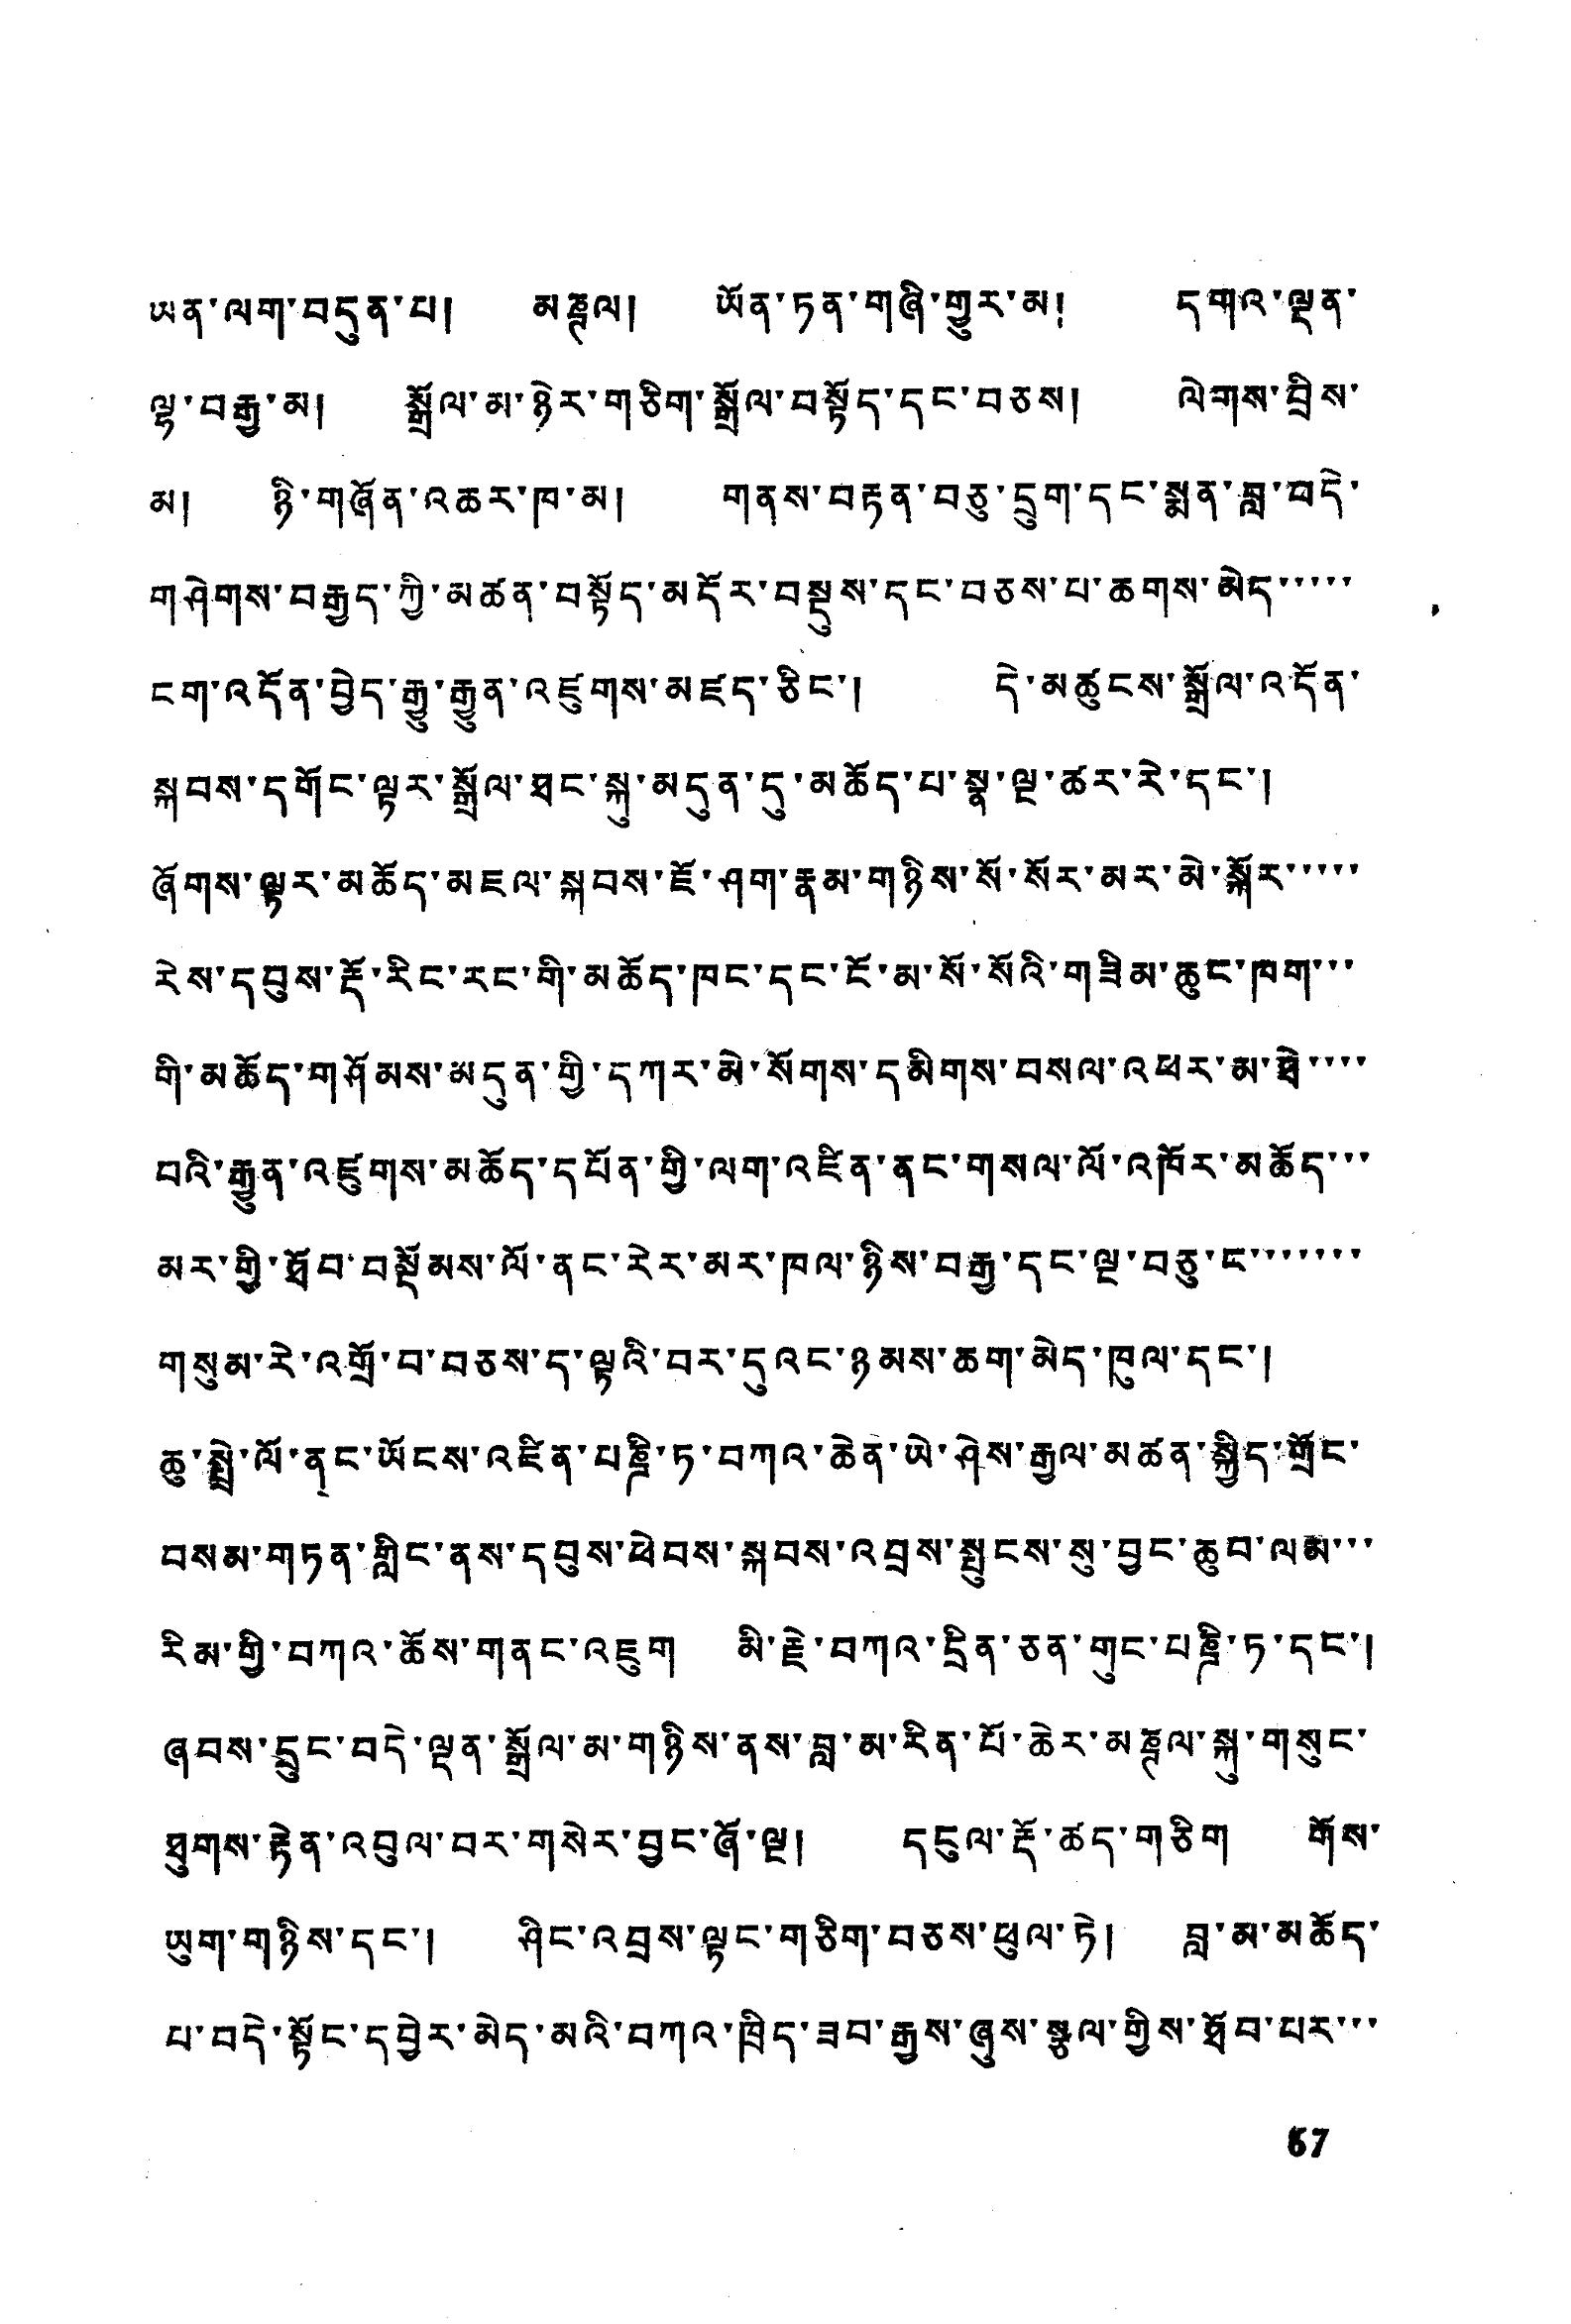ཡན་ལག་བདུན་པ། མཎྚལ། ཡོན་ཏན་གཞི་གྱུར་མ། དགའ་ལྡན་
ལྷ་བརྒྱ་མ། སྒྲོལ་མ་ཉེར་གཅིག་སྒྲོལ་བསྟོད་དང་བཅས། ལེགས་བྲིས་
མ། ཉི་གཞོན་འཆར་ཁ་མ། གནས་བརྟན་བཅུ་དྲུག་དང་སྨན་བླ་བདེ་
གཤེགས་བརྒྱད་ཀྱི་མཚན་བསྟོད་མདོར་བསྡུས་དང་བཅས་པ་ཆགས་མེད་་་་་
ངག་འདོན་བྱེད་རྒྱུན་འཛུགས་མཛད་ཅིང་། དེ་མཚུངས་སྒྲོལ་འདོན་
སྐབས་དགོང་ལྟར་སྒྲོལ་ཐང་སྐུ་མདུན་དུ་མཆོད་པ་སྣ་ལྔ་ཚར་རེ་དང་།
ཞོགས་ལྟར་མཆོད་མཇལ་སྐབས་ཇོ་ཤག་རྣམ་གཉིས་སོ་སོར་མར་མེ་སྐོར་་་་་
རེས་དབུས་རྡོ་རིང་རང་གི་མཆོད་ཁང་དང་ངོ་མ་སོ་སོའི་གཟིམ་ཆུང་ཁག་་་
གི་མཆོད་གཤོམས་མདུན་གྱི་དཀར་མེ་སོགས་དམིགས་བསལ་འཕར་མ་ཐེ་་་་
བའི་རྒྱུན་འཛུགས་མཆོད་དཔོན་གྱི་ལག་འཛིན་ནང་གསལ་ལོ་འཁོར་མཆོད་་་
མར་གྱི་ཐོབ་བསྡོམས་ལོ་ནང་རེར་མར་ཁལ་ཉིས་བརྒྱ་དང་ལྔ་བཅུ་ང་་་་་་་
གསུམ་རེ་འགྲོ་བ་བཅས་ད་ལྟའི་བར་དུའང་ཉམས་ཆག་མེད་ཁུལ་དང་།
ཆུ་སྤྲེ་ལོ་ནང་ཡོངས་འཛིན་པཎྜི་ཏ་བཀའ་ཆེན་ཡེ་ཤེས་རྒྱལ་མཚན་སྐྱིད་གྲོང་
བསམ་གཏན་གླིང་ནས་དབུས་ཕེབས་སྐབས་འབྲས་སྤུངས་སུ་བྱང་ཆུབ་ལམ་་་
རིམ་གྱི་བཀའ་ཆོས་གནང་འཇུག་མི་རྗེ་བཀའ་དྲིན་ཅན་གུང་པཎྜི་ཏ་དང་།
ཞབས་དྲུང་བདེ་ལྡན་སྒྲོལ་མ་གཉིས་ནས་བླ་མ་རིན་པོ་ཆེར་མཎྚལ་སྐུ་གསུང་
ཐུགས་རྟེན་འབུལ་བར་གསེར་བྱང་ཞོ་ལྔ། དངུལ་རྡོ་ཚད་གཅིག གོས་
ཡུག་གཉིས་དང་། ཤིང་འབྲས་ལྟང་གཅིག་བཅས་ཕུལ་ཏེ། བླ་མ་མཆོད་
པ་བདེ་སྟོང་དབྱེར་མེད་མའི་བཀའ་ཁྲིད་ཟབ་རྒྱས་ཞུས་སྩལ་གྱིས་ཐོབ་པར་་་
67
